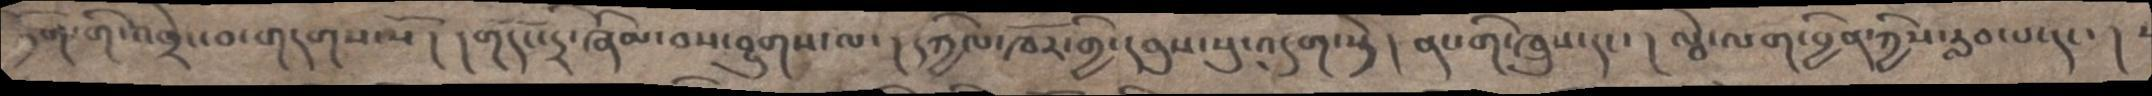ཏོག་གི་འཁྲིང་བ་གདགས་སོ། །གདོང་དྲི་ཞིམ་བས་བྱུགས་ལ་། དཀྱིལ་འཁོར་གྱི་དབུས་སུ་འདུག་སྟེ། ནང་གི་ཁྲུས་དང་། ལྕེ་ལག་བྱིན་ཀྱིས་རླབ་པ་དང་།
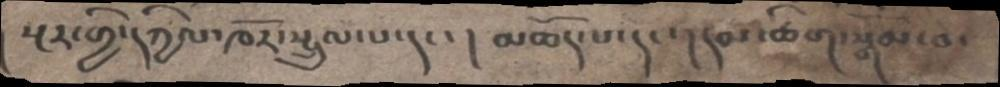སྔར་གྱི་དཀྱིལ་འཁོར་སྤྲུལ་པ་དང་། མཆོད་པ་དང་། དམ་ཚིག་སྒོམ་བ་
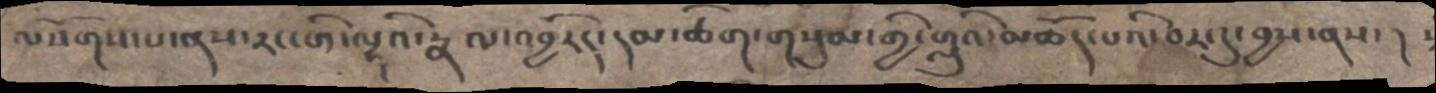ལསོགས་པ་ནས་རང་གི་ལྷའི་རྣལ་འབྱོརད་དམ་ཚིག་གསུམ་གྱི་གླུའི་མཆོད་པའི་བར་དུ་བྱས་ནས་།
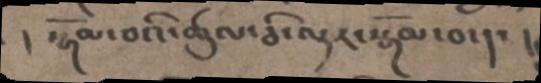། སྒོམ་བའི་ཚུལ་ཅི་ལྟར་སྒོམ་བ་དང །
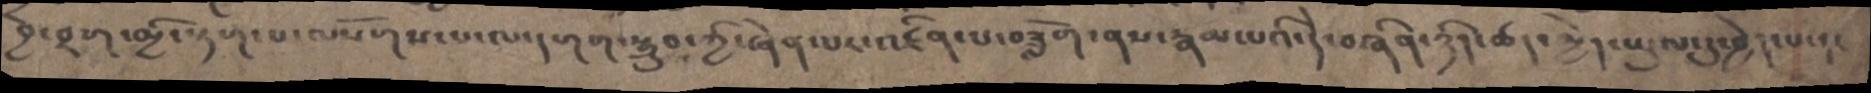བྱེ་བྲག་མྱི་རྟག་པ་ལསོགས་པ་ལ་དགག་སྒྲུབ་ཀྱི་ཞེན་པར་འཛིན་པ་བཟློག་ནས་རྣམ་པའི་དེ་བཞིན་ཉིད་ཚད་མྱེད་ཡུལ་དུ་བྱེད་པ་དང
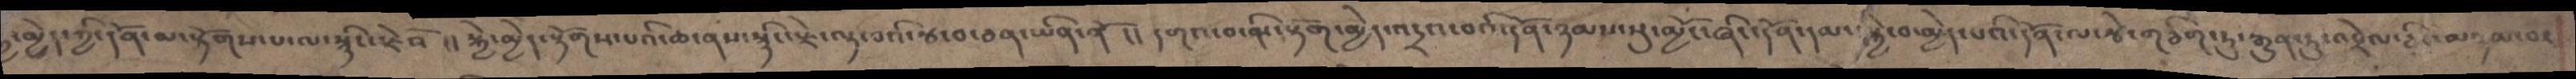་མྱེད་ཀྱི་དོན་མ་རྟོགས་པ་ལ་སྙིང་རྗེའོ །།སྐྱེ་མྱེད་རྟོགས་པའི་ཆ་ནས་སྙིང་རྗེ་ལྟ་བའི་རྩ་བ་ཅན་ཡིན་ནོ །། དགའ་བ་ནི་རྟོག་མྱེད་འདྲའ་བའི་དོན་ཉམས་སུ་མྱོང་ཞིང་དོན་དམ་སྐྱེ་བ་མྱེད་པའི་དོན་ལ་རྩེ་གཅིག་ཏུ་རྒྱུན་ཏུ་འབྲེལ་ཅིང་མཉམ་པར
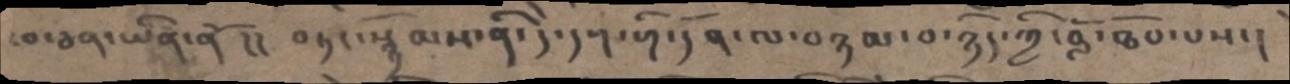རབ་ཅན་ཡིན་ནོ །། བཏང་སྙོམས་ནི་དེ་དག་གི་དོན་ལ་བཉམ་བ་ཉིད་ཀྱི་བློ་ཐོབ་པས་ །
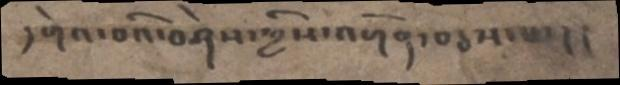དགེའ་བའི་བཤེས་ཀྱིས་འགོན་བཅས་པ་། །
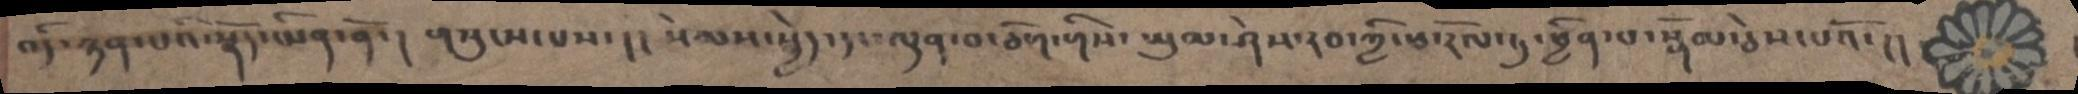འདི་ཉན་པའི་སྣོད་ཡིན་ནོ་།  གསུངས་པས་།། སེམས་སྐྱེད་དང་ལྡན་པ་ཅིག་གིས་ཡུལ་ཤེས་རབ་ཀྱི་ཕ་རོལ་ཏུ་སྦྱིན་པ་སྒོམ་ཅེས་པའོ་།།
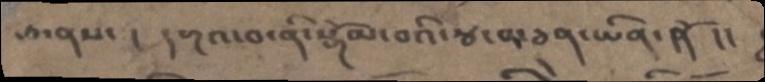རྩ་ནས་། དགའ་བ་ནི་སྒོམ་བའི་རྩ་བ་ཅན་ཡིན་ནོ །།
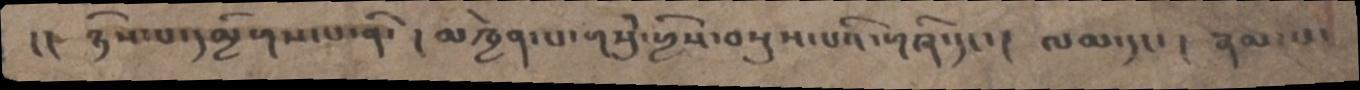།། ཉེས་པ་དམྱིགས་པ་ནི་། མཁྱེན་པ་གསུཾ་གྱིས་བསྡུས་པའི་གཞི་དང་། ལམ་དང་། རྣམ་པ་
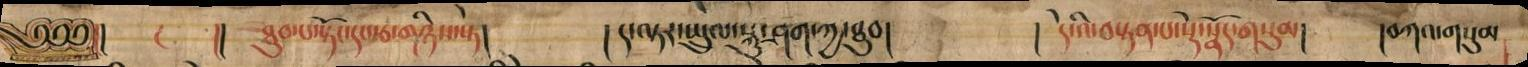༄༅༅།། ༑ །། ཐུབ་པ་སྟོང་དང་རྩ་གཉིས་སྟེ། ། ད་ལྟར་སྤྲུལ་སྐུ་ཤག་ཀྱ་ཐུབ། ། དེ་འི་བསྟན་པ་སྡེ་སྣོད་གསུམ། །བཀའ་གསུམ
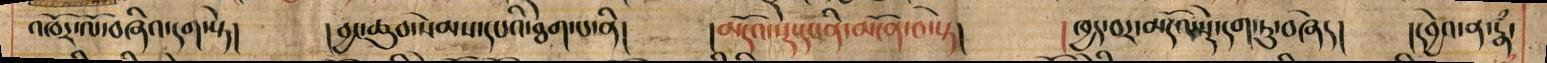འཁོར་ལོ་བཞིའ་དག་སྟེ། །བྱང་ཆུབ་སེམས་དཔའི་ཐེག་པ་ནི། །མདོའ་སྡེ་དང་ནི་མངོན་བ་སྟེ། །ཁྱད་བར་མདོའ་སྡེ་དག་ཏུ་བཞེད། །དབྱེའ་ན་རྣཾ་
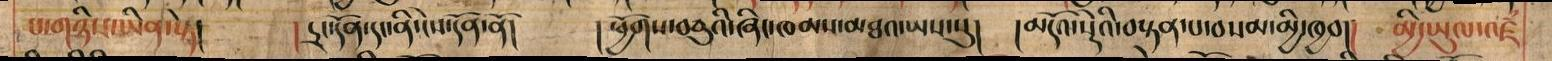པ་གཉིས་ཡིན་སྟེ། །དྲང་དོན་ངེས་དོན་ནོ། །ཕྱོགས་བཅུའི་ཞིང་ཁམས་མཐའ་ཡས་སུ། །མདོའ་སྡེའི་བསྟན་པ་བསམ་མི་ཁྱབ།། མྱི་ཡུལ་འཛཾ
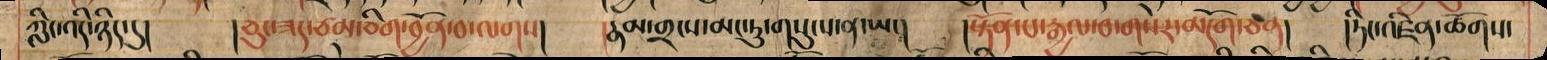ཀླིང་འདི་ཉིད་དུ། །ཅུང་ཟད་ཙམ་ཅིག་བྱོན་བ་ལགས། །རྣམ་གྲངས་མང་ཏུ་གསུངས་ན་ཡང། །སྟོན་པ་རྒྱལ་བ་གསེར་མདོག་ཅན། །ཏིང་འཛིན་ཚོགས་
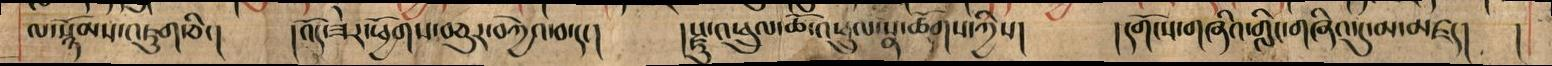ལ་སྙོམས་འཇུག་ཅིང། །འོད་ཟེར་ཕྱོགས་བཅུར་བཀྱེའ་བ་དང། །སྫུ་འཕྲུལ་ཆོ་འཕྲུལ་སྣ་ཚོགས་ཀྱིས། །དགོངས་གཞིའ་གླིང་གཞིའ་དུ་མ་མཛད། །
